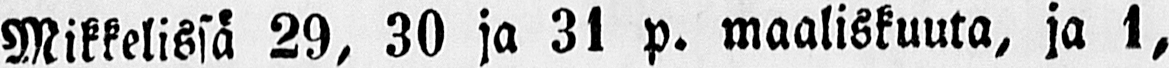Mikkelissä 29, 30 ja 31 p. maaliskuuta, ja 1,
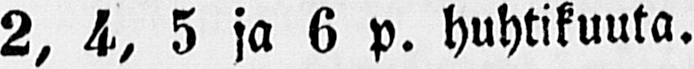2, 4, 5 ja 6 p. huhtikuuta.
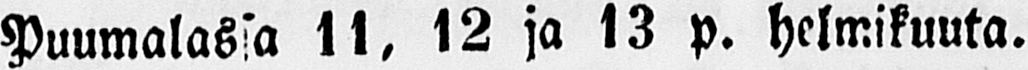Puumalassa 11, 12 ja 13 p. helmikuuta.
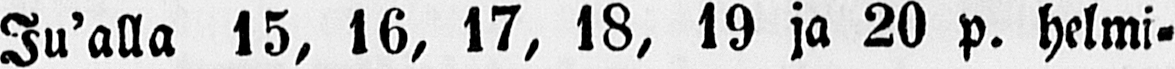Ju'alla 15, 16, 17, 18, 19 ja 20 p. helmi-
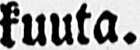kuuta.
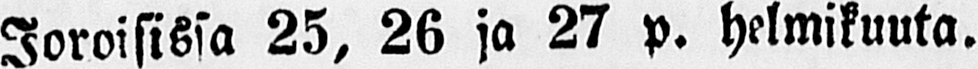Joroisissa 25, 26 ja 27 p. helmikuuta.
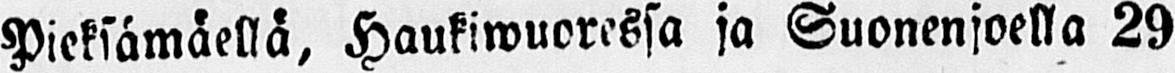Pieksämäellä, Haukiwuoressa ja Suonenjoella 29
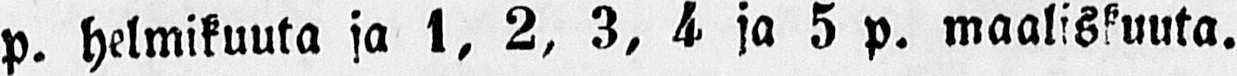p. helmikuuta ja 1, 2, 3, 4 ja 5 p. maaliskuuta.
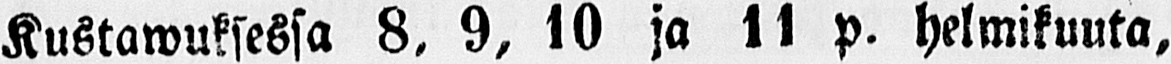Kustawuksessa 8, 9, 10 ja 11 p. helmikuuta,
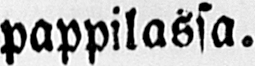pappilassa.
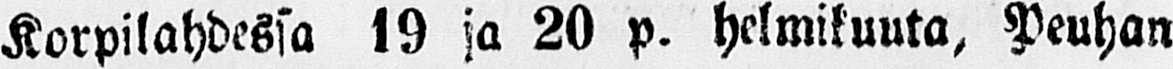Korpilahdessa 19 ja 20 p. helmikuuta, Peuhan
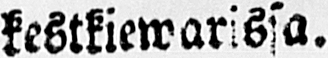kestkiewarissa.
